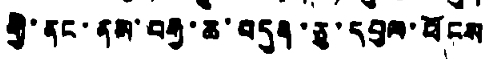གྱི་ནང་ནས་བརྒྱ་ཆ་བདུན་ཅུ་དབུལ་ཕོངས
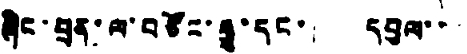ཞིང་བྲན་ལ་བཙོང་རྒྱུ་དང་། དབུལ་་་
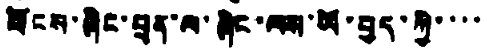ཕོངས་ཞིང་བྲན་ལ་ཞིང་ལས་ཡོ་བྱད་ཀྱི་་་་
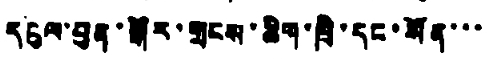དངུལ་བུན་སྒོར་གྲངས་ཆིག་ཁྲི་དང་སོན་་་
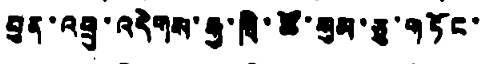བུན་འབྲུ་འདེགས་རྒྱ་ཁྲི་ཚོ་སུམ་ཅུ་གཏོང་
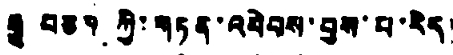རྒྱུ བཅས་ཀྱི་གཏན་འབེབས་བྱས་པ་རེད།
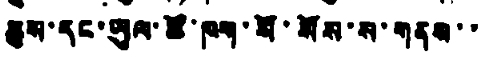ཆུས་དང་ཡུལ་ཚོ་ཁག་སོ་སོས་ས་གནས་་
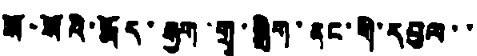སོ་སོའི་རྨོད་རྒྱག་གྲྭ་སྒྲིག་ནང་གི་དབུལ་་
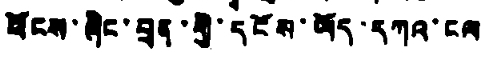ཕོངས་ཞིང་བྲན་གྱི་དངོས་ཡོད་དཀའ་ངལ
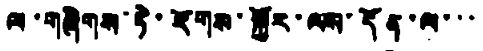ལ་གཞིགས་ཏེ་རོགས་སྐྱོར་ལས་དོན་ལ་་་
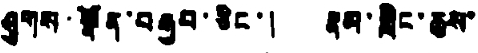ཤུགས་སྣོན་བརྒྱབ་ཅིང་། རྣམ་གླིང་ཆུས་
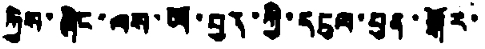ཀྱིས་ཞིང་ལས་ཡོ་བྱད་ཀྱི་དངུལ་བུན་སྒོར་
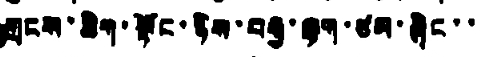གྲངས་ཆིག་སྟོང་ཉིས་བརྒྱ་ལྷག་ཙམ་ཞིང་་
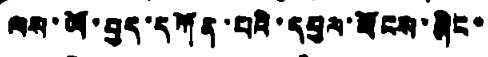ལས་ཡོ་བྱད་དཀོན་པའི་དབུལ་ཕོངས་ཞིང་་
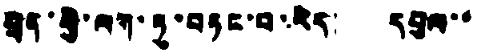བྲན་གྱི་ལག་ཏུ་བཏང་བ་རེད། དབུལ་་
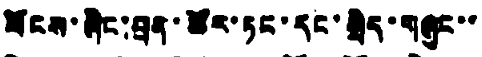ཕོངས་ཞིང་བྲན་ཚོར་ཏང་དང་སྲིད་གཞུང་་
